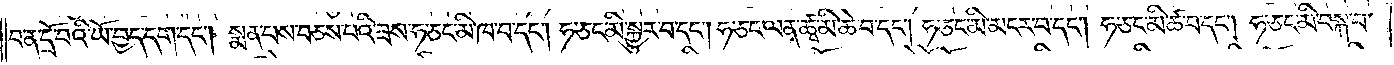བ་ན་དྲོ་བའི་ཡོ་བྱད་དག་དང༌། སྨན་པས་བཅས་པའི་ཟས་ཧ་ཅང་མི་ཁ་བ་དང༌། ཧ་ཅང་མི་སྐྱུར་བ་དང༌། ཧ་ཅང་ལན་ཚྭ་མི་ཆེ་བ་དང༌། ཧ་ཅང་མི་མངར་བ་དང༌། ཧ་ཅང་མི་ཚ་བ་དང༌། ཧ་ཅང་མི་བསྐ་བ་
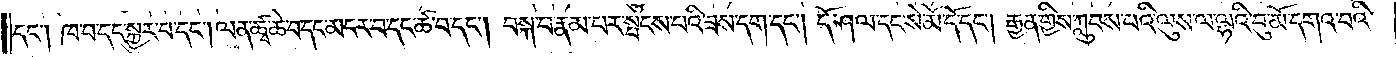དང༌། ཁ་བ་དང་སྐྱུར་པ་དང༌། ལན་ཚྭ་ཆེ་བ་དང་མངར་བ་དང་ཚ་བ་དང༌། བསྐ་བ་རྣམ་པར་སྤངས་པའི་ཟས་དག་དང༌། དོ་ཤལ་དང་སེ་མོ་དོ་དང༌། རྒྱན་གྱིས་ཀླུབས་པའི་ལུས་ལ་ལྷའི་བུ་མོ་དགའ་བའི་
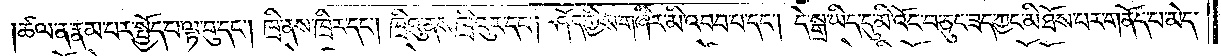ཚལ་ན་རྣམ་པར་སྤྱོད་པ་ལྟ་བུ་དང༌། ཁྲི་ནས་ཁྲིར་དང༌། ཁྲིའུ་ནས་ཁྲིའུར་དང༌། ཤོད་ཀྱིས་གཞིར་མི་འབབ་པ་དང༌། དེ་སྒྲ་ཡིད་དུ་མི་འོང་བ་ཅུང་ཟད་ཀྱང་མི་ཐོས་པར་གནོད་པ་མེད་
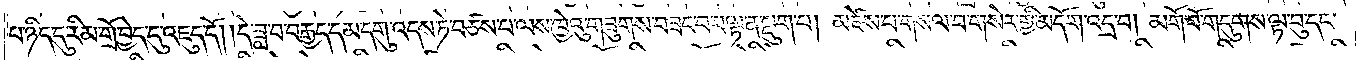པ་ཉིད་དུ་རིམ་གྲོ་བྱེད་དུ་འཇུད་དོ། །དེ་ཟླ་བ་བརྒྱད་དམ་དགུ་འདས་ཏེ་བཙས་པ་ལས་ཁྱེའུ་གཟུགས་བཟང་བ་བལྟ་ན་སྡུག་པ། མཛེས་པ་གསལ་བ་གསེར་གྱི་མདོག་འདྲ་བ། མགོ་བོ་གདུགས་ལྟ་བུ་དང་
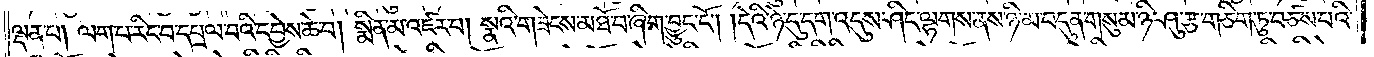ལྡན་པ། ལག་པ་རིང་བ་དཔྲལ་བའི་དབྱེས་ཆེ་བ། སྨིན་མ་འཛར་བ། སྣའི་གཟེངས་མཐོ་བ་ཞིག་བྱུང་ངོ༌། །དེའི་ཉེ་དུ་དག་འདུས་ཤིང་ལྷགས་ནས་ཉི་མ་བདུན་གསུམ་ཉི་ཤུ་རྩ་གཅིག་ཏུ་བཙས་པའི་
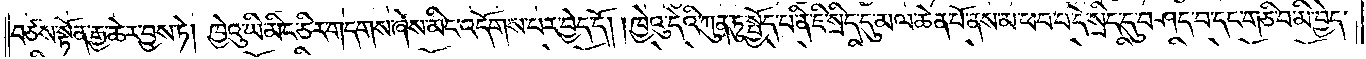བཙས་སྟོན་རྒྱ་ཆེར་བྱས་ཏེ། ཁྱེའུ་ཡི་མིང་ཅིར་གདགས་ཞེས་མིང་འདོགས་པར་བྱེད་དོ། །ཁྱེའུ་དེའི་ཀུན་ཏུ་སྤྱོད་པ་ནི་ཇི་སྲིད་དུ་མལ་ཆེན་པོ་ནས་མ་ཕབ་པ་དེ་སྲིད་དུ་བཤང་བ་དང་གཅི་བ་མི་བྱེད་
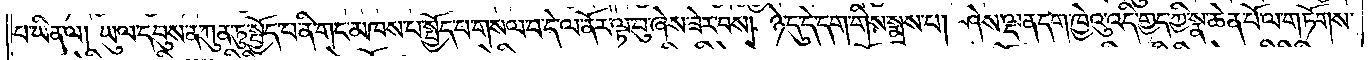པ་ཡིན་ལ། ཡུལ་དབུས་ན་ཀུན་ཏུ་སྤྱོད་པ་ནི་གང་མཁས་པ་སྤྱོད་པ་གསལ་བ་དེ་ལ་ནོར་ལྟ་བུ་ཞེས་ཟེར་བས། ཉེ་དུ་དེ་དག་གིས་སྨྲས་པ། ཤེས་ལྡན་དག་ཁྱེའུ་འདི་གྱད་ཀྱི་སྣ་ཆེན་པོ་ལ་གཏོགས་
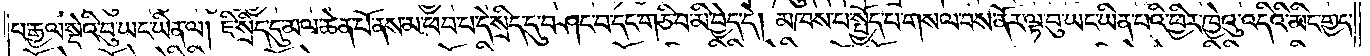པ་རྒྱལ་སྡེའི་བུ་ཡང་ཡིན་ལ། ཇི་སྲིད་དུ་མལ་ཆེན་པོ་ནས་མ་ཕབ་པ་དེ་སྲིད་དུ་བཤང་བ་དང་གཅི་བ་མི་བྱེད་དེ། མཁས་པ་སྤྱོད་པ་གསལ་བས་ནོར་ལྟ་བུ་ཡང་ཡིན་པའི་ཕྱིར་ཁྱེའུ་འདིའི་མིང་གྱད་
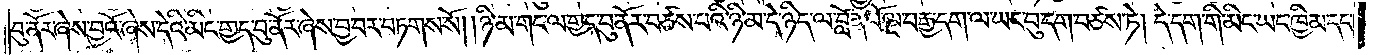བུ་ནོར་ཞེས་བྱའོ་ཞེས་དེའི་མིང་གྱད་བུ་ནོར་ཞེས་བྱ་བར་བཏགས་སོ། །ཉི་མ་གང་ལ་གྱད་བུ་ནོར་བཙས་པའི་ཉི་མ་དེ་ཉིད་ལ་བློན་པོ་ལྔ་བརྒྱ་དག་ལ་ཡང་བུ་དག་བཙས་ཏེ། དེ་དག་གི་མིང་ཡང་ཁྱིམ་དང་
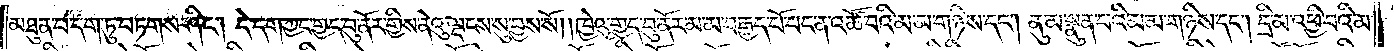མཐུན་པ་དག་ཏུ་བཏགས་ཤིང༌། དེ་དག་ཀྱང་གྱད་བུ་ནོར་གྱིས་ནེའུ་ལྡངས་སུ་བྱས་སོ། །ཁྱེའུ་གྱད་བུ་ནོར་མ་མ་བརྒྱད་པོ་པང་ན་འཚོ་བའི་མ་མ་གཉིས་དང༌། ནུ་མ་སྣུན་པའི་མ་མ་གཉིས་དང༌། དྲི་མ་འཕྱི་བའི་མ་
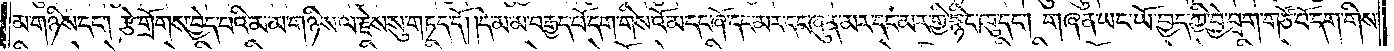མ་གཉིས་དང༌། རྩེ་གྲོགས་བྱེད་པའི་མ་མ་གཉིས་ལ་རྗེས་སུ་གཏད་དོ། །དེ་མ་མ་བརྒྱད་པོ་དག་གིས་འོ་མ་དང་ཞོ་དང་མར་དང་ཞུན་མར་དང་མར་གྱི་སྙིང་ཁུ་དང༌། གཞན་ཡང་ཡོ་བྱད་ཀྱི་བྱེ་བྲག་གཙོ་བོ་དག་གིས་
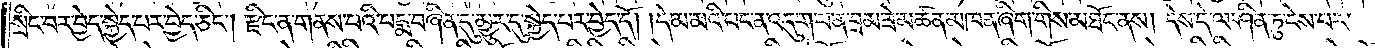སྲིང་བར་བྱེད་སྐྱེད་པར་བྱེད་ཅིང༌། རྫིང་ན་གནས་པའི་པདྨ་བཞིན་དུ་མྱུར་དུ་སྐྱེད་པར་བྱེད་དོ། །དེ་མ་མའི་པང་ན་འདུག་པ་ན་བྲམ་ཟེ་མཚན་མཁན་ཞིག་གིས་མཐོང་ནས། དེས་དེ་ལ་ཤིན་ཏུ་ངེས་པར་
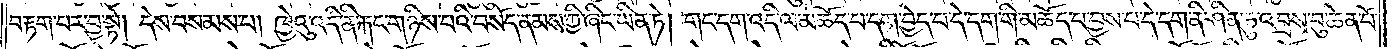བརྟག་པར་བྱ་སྟེ། དེས་བསམས་པ། ཁྱེའུ་འདི་ནི་རྐང་གཉིས་པའི་བསོད་ནམས་ཀྱི་ཞིང་ཡིན་ཏེ། གང་དག་འདི་ལ་མཆོད་པ་དག་བྱེད་པ་དེ་དག་གི་མཆོད་པ་བྱས་པ་དེ་དག་ནི་ཤིན་ཏུ་འབྲས་བུ་ཆེན་པོ་
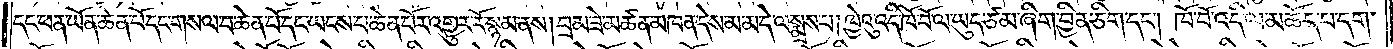དང་ཕན་ཡོན་ཆེན་པོ་དང་གསལ་བ་ཆེན་པོ་དང་ཡངས་པ་ཆེན་པོར་འགྱུར་རོ་སྙམ་ནས། བྲམ་ཟེ་མཚན་མཁན་དེས་མ་མ་དེ་ལ་སྨྲས་པ། ཁྱེའུ་འདི་ཁོ་བོ་ལ་ཡུད་ཙམ་ཞིག་བྱིན་ཅིག་དང༌། ཁོ་བོ་འདི་ལ་མཆོད་པ་དག་
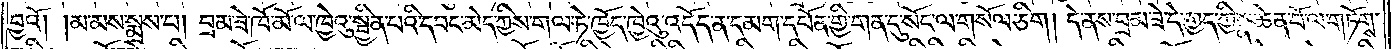བྱའོ། །མ་མས་སྨྲས་པ། བྲམ་ཟེ་ཁོ་མོ་ལ་ཁྱེའུ་སྦྱིན་པའི་དབང་མེད་ཀྱིས་གལ་ཏེ་ཁྱོད་ཁྱེའུ་འདོད་ན་དམག་དཔོན་གྱི་གན་དུ་སོང་ལ་གསོལ་ཅིག། དེ་ནས་བྲམ་ཟེ་དེ་གྱད་ཀྱི་སྣ་ཆེན་པོ་ལ་གཏོགས་
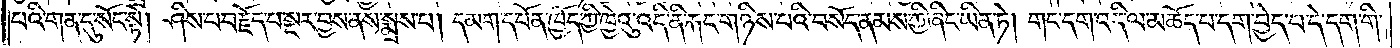པའི་གན་དུ་སོང་སྟེ། ཤིས་པ་བརྗོད་པ་སྔར་བྱས་ནས་སྨྲས་པ། དམག་དཔོན་ཁྱོད་ཀྱི་ཁྱེའུ་འདི་ནི་རྐང་གཉིས་པའི་བསོད་ནམས་ཀྱི་ཞིང་ཡིན་ཏེ། གང་དག་འདི་ལ་མཆོད་པ་དག་བྱེད་པ་དེ་དག་གི་
